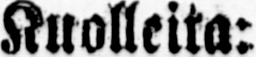Kuolleita:
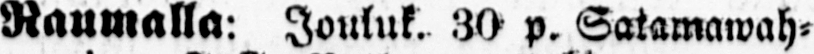Raumalla: Jouluk. 30 p. Satamawah-
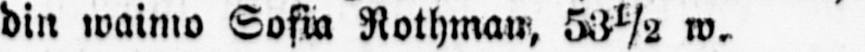din waimo Sofia Rothmaan, 53½ w.
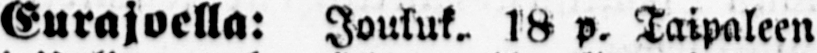Eurajoella: Jouluk 18 p. Taipaleen
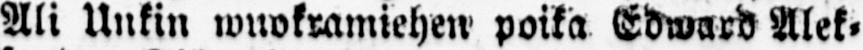Ali Unkin wuokramiehen poika Edward Alek-
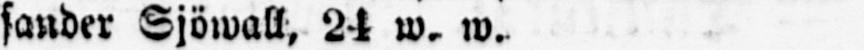sander Sjöwall, 24 w. w.
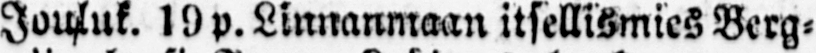Jouluk. 19 p. Linnanmaan itsellismies Berg-
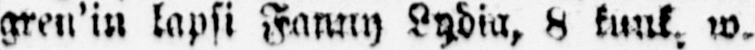gren'in lapsi Fanny Lydia, 8 kuuk w.
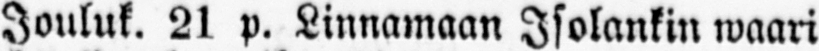Jouluk. 21 p. Linnamaan Isolankin waari
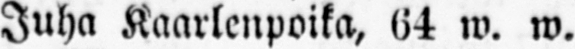Juha Kaarlenpoika, 64 w. w.
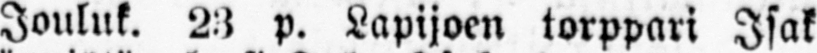Jouluk. 23 p. Lapijoen torppari Isak
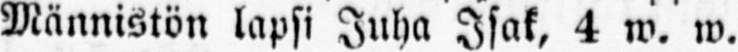Männistön lapsi Juha Isak, 4 w. w.
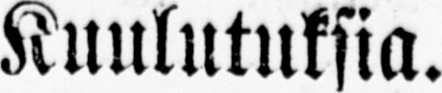Kuulutuksia.
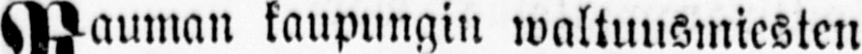Rauman kaupungin waltuusmiesten
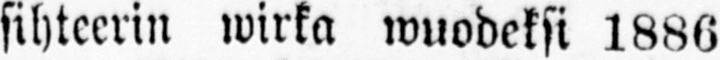sihteerin wirka wuodeksi 1886
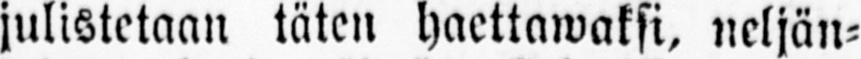julistetaan täten haettawaksi, neljän-
